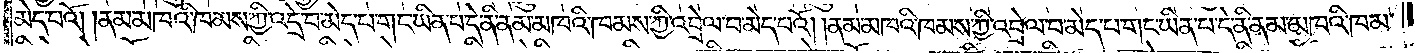མེད་པའོ། །ནམ་མཁའི་ཁམས་ཀྱི་འདྲེ་བ་མེད་པ་གང་ཡིན་པ་དེ་ནི་ནམ་མཁའི་ཁམས་ཀྱི་འབྲེལ་བ་མེད་པའོ། །ནམ་མཁའི་ཁམས་ཀྱི་འབྲེལ་བ་མེད་པ་གང་ཡིན་པ་དེ་ནི་ནམ་མཁའི་ཁམས་
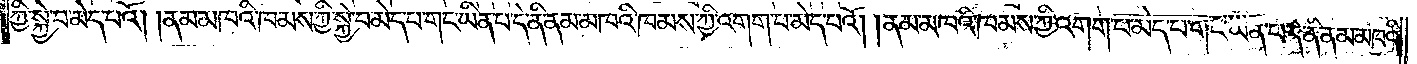ཀྱི་སྐྱེ་བ་མེད་པའོ། །ནམ་མཁའི་ཁམས་ཀྱི་སྐྱེ་བ་མེད་པ་གང་ཡིན་པ་དེ་ནི་ནམ་མཁའི་ཁམས་ཀྱི་འགག་པ་མེད་པའོ། །ནམ་མཁའི་ཁམས་ཀྱི་འགག་པ་མེད་པ་གང་ཡིན་པ་དེ་ནི་ནམ་མཁའི་
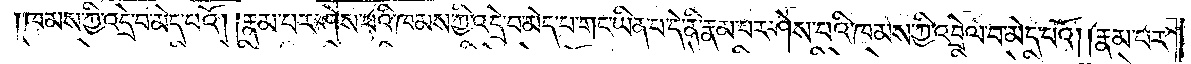ཁམས་ཀྱི་འདྲེ་བ་མེད་པའོ། །རྣམ་པར་ཤེས་པའི་ཁམས་ཀྱི་འདྲེ་བ་མེད་པ་གང་ཡིན་པ་དེ་ནི་རྣམ་པར་ཤེས་པའི་ཁམས་ཀྱི་འབྲེལ་བ་མེད་པའོ། །རྣམ་པར་
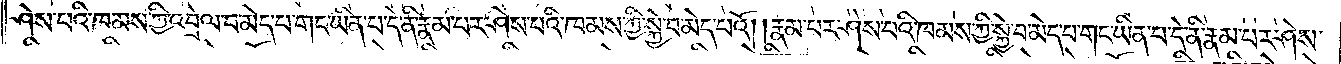ཤེས་པའི་ཁམས་ཀྱི་འབྲེལ་བ་མེད་པ་གང་ཡིན་པ་དེ་ནི་རྣམ་པར་ཤེས་པའི་ཁམས་ཀྱི་སྐྱེ་བ་མེད་པའོ། །རྣམ་པར་ཤེས་པའི་ཁམས་ཀྱི་སྐྱེ་བ་མེད་པ་གང་ཡིན་པ་དེ་ནི་རྣམ་པར་ཤེས་
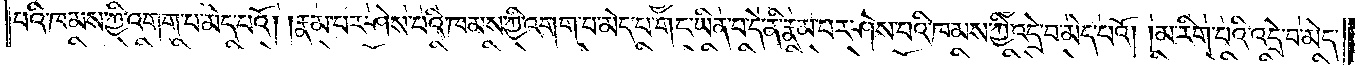པའི་ཁམས་ཀྱི་འགག་པ་མེད་པའོ། །རྣམ་པར་ཤེས་པའི་ཁམས་ཀྱི་འགག་པ་མེད་པ་གང་ཡིན་པ་དེ་ནི་རྣམ་པར་ཤེས་པའི་ཁམས་ཀྱི་འདྲེ་བ་མེད་པའོ། མ་རིག་པའི་འདྲེ་བ་མེད་
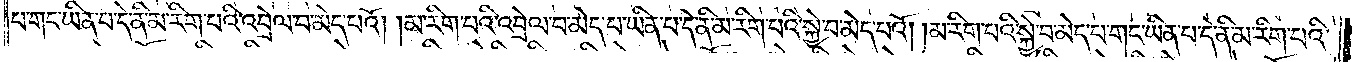པ་གང་ཡིན་པ་དེ་ནི་མ་རིག་པའི་འབྲེལ་བ་མེད་པའོ། །མ་རིག་པའི་འབྲེལ་བ་མེད་པ་གང་ཡིན་པ་དེ་ནི་མ་རིག་པའི་སྐྱེ་བ་མེད་པའོ། །མ་རིག་པའི་སྐྱེ་བ་མེད་པ་གང་ཡིན་པ་དེ་ནི་མ་རིག་པའི་
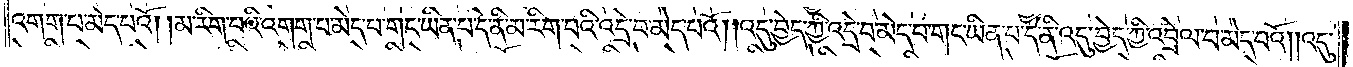འགག་པ་མེད་པའོ། །མ་རིག་པའི་འགག་པ་མེད་པ་གང་ཡིན་པ་དེ་ནི་མ་རིག་པའི་འདྲེ་བ་མེད་པའོ། །འདུ་བྱེད་ཀྱི་འདྲེ་བ་མེད་པ་གང་ཡིན་པ་དེ་ནི་འདུ་བྱེད་ཀྱི་འབྲེལ་བ་མེད་པའོ། །འདུ་
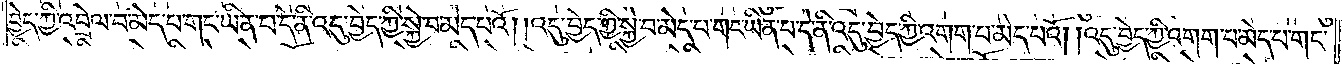བྱེད་ཀྱི་འབྲེལ་བ་མེད་པ་གང་ཡིན་པ་དེ་ནི་འདུ་བྱེད་ཀྱི་སྐྱེ་བ་མེད་པའོ། །འདུ་བྱེད་ཀྱི་སྐྱེ་བ་མེད་པ་གང་ཡིན་པ་དེ་ནི་འདུ་བྱེད་ཀྱི་འགག་པ་མེད་པའོ། །འདུ་བྱེད་ཀྱི་འགག་པ་མེད་པ་གང་
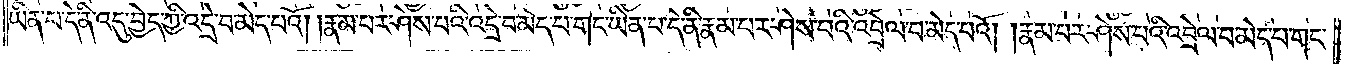ཡིན་པ་དེ་ནི་འདུ་བྱེད་ཀྱི་འདྲེ་བ་མེད་པའོ། །རྣམ་པར་ཤེས་པའི་འདྲེ་བ་མེད་པ་གང་ཡིན་པ་དེ་ནི་རྣམ་པར་ཤེས་པའི་འབྲེལ་བ་མེད་པའོ། །རྣམ་པར་ཤེས་པའི་འབྲེལ་བ་མེད་པ་གང་
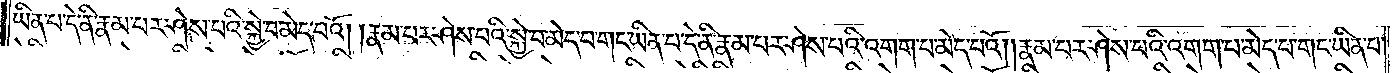ཡིན་པ་དེ་ནི་རྣམ་པར་ཤེས་པའི་སྐྱེ་བ་མེད་པའོ། །རྣམ་པར་ཤེས་པའི་སྐྱེ་བ་མེད་པ་གང་ཡིན་པ་དེ་ནི་རྣམ་པར་ཤེས་པའི་འགག་པ་མེད་པའོ། །རྣམ་པར་ཤེས་པའི་འགག་པ་མེད་པ་གང་ཡིན་པ་
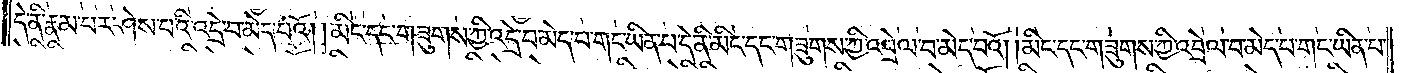དེ་ནི་རྣམ་པར་ཤེས་པའི་འདྲེ་བ་མེད་པའོ། །མིང་དང་གཟུགས་ཀྱི་འདྲེ་བ་མེད་པ་གང་ཡིན་པ་དེ་ནི་མིང་དང་གཟུགས་ཀྱི་འབྲེལ་བ་མེད་པའོ། །མིང་དང་གཟུགས་ཀྱི་འབྲེལ་བ་མེད་པ་གང་ཡིན་པ་
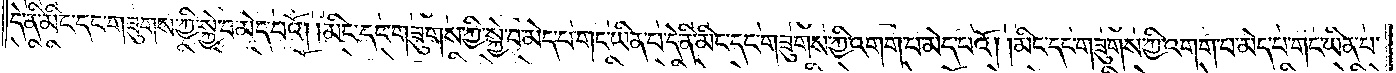དེ་ནི་མིང་དང་གཟུགས་ཀྱི་སྐྱེ་བ་མེད་པའོ། །མིང་དང་གཟུགས་ཀྱི་སྐྱེ་བ་མེད་པ་གང་ཡིན་པ་དེ་ནི་མིང་དང་གཟུགས་ཀྱི་འགག་པ་མེད་པའོ། །མིང་དང་གཟུགས་ཀྱི་འགག་པ་མེད་པ་གང་ཡིན་པ་
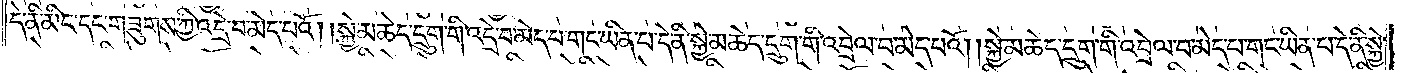དེ་ནི་མིང་དང་གཟུགས་ཀྱི་འདྲེ་བ་མེད་པའོ། །སྐྱེ་མཆེད་དྲུག་གི་འདྲེ་བ་མེད་པ་གང་ཡིན་པ་དེ་ནི་སྐྱེ་མཆེད་དྲུག་གི་འབྲེལ་བ་མེད་པའོ། །སྐྱེ་མཆེད་དྲུག་གི་འབྲེལ་བ་མེད་པ་གང་ཡིན་པ་དེ་ནི་སྐྱེ་
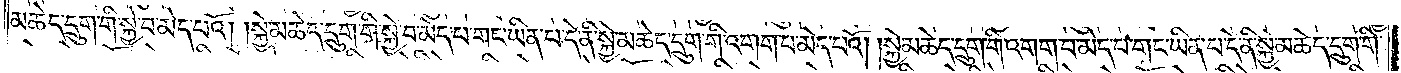མཆེད་དྲུག་གི་སྐྱེ་བ་མེད་པའོ། །སྐྱེ་མཆེད་དྲུག་གི་སྐྱེ་བ་མེད་པ་གང་ཡིན་པ་དེ་ནི་སྐྱེ་མཆེད་དྲུག་གི་འགག་པ་མེད་པའོ། །སྐྱེ་མཆེད་དྲུག་གི་འགག་པ་མེད་པ་གང་ཡིན་པ་དེ་ནི་སྐྱེ་མཆེད་དྲུག་གི་
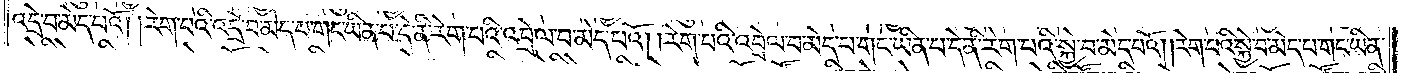འདྲེ་བ་མེད་པའོ། །རེག་པའི་འདྲེ་བ་མེད་པ་གང་ཡིན་པ་དེ་ནི་རེག་པའི་འབྲེལ་བ་མེད་པའོ། །རེག་པའི་འབྲེལ་བ་མེད་པ་གང་ཡིན་པ་དེ་ནི་རེག་པའི་སྐྱེ་བ་མེད་པའོ། །རེག་པའི་སྐྱེ་བ་མེད་པ་གང་ཡིན་
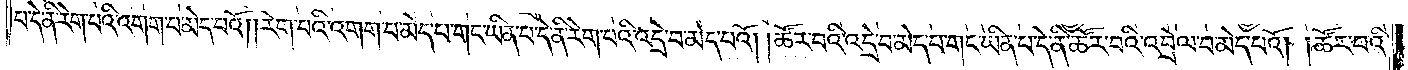པ་དེ་ནི་རེག་པའི་འགག་པ་མེད་པའོ། །རེག་པའི་འགག་པ་མེད་པ་གང་ཡིན་པ་དེ་ནི་རེག་པའི་འདྲེ་བ་མེད་པའོ། །ཚོར་བའི་འདྲེ་བ་མེད་པ་གང་ཡིན་པ་དེ་ནི་ཚོར་བའི་འབྲེལ་བ་མེད་པའོ། །ཚོར་བའི་
